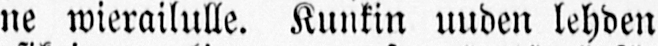ne wierailulle. Kunkin uuden lehden
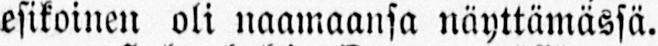esikoinen oli naamaansa näyttämässä.
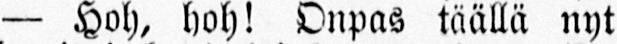— Höh, höh! Onpas täällä nyt
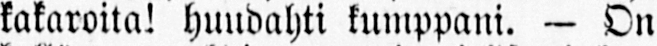kakaroita! huudahti kumppani. — On
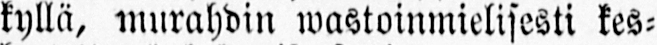kyllä, murahdin wastoinmielisesti kes-
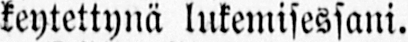keytettynä lukemisessani.
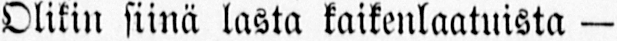Olikin siinä lasta kaikenlaatuista —
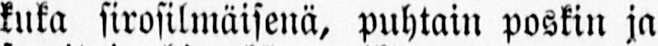kuka sirosilmäisenä, puhtain poskin ja
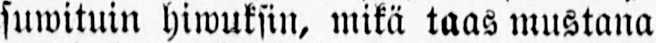suwituin hiwuksin, mikä taas mustana
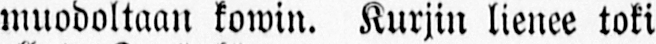muodoltaan kowin. Kurjin lienee toki
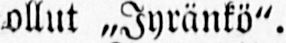ollut ˶Jyränkö".
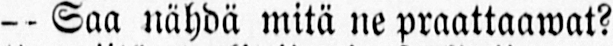- Saa nähdä mitä ne praattaawat?
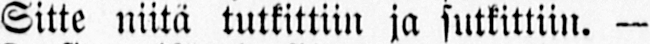Sitte niitä tutkittiin ja sutkittiin. —
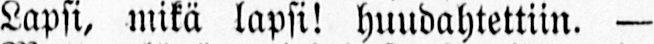Lapsi, mikä lapsi! huudahtettiin. —
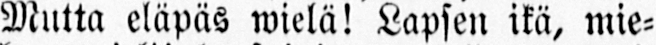Mutta eläpäs wielä! Lapsen ikä, mie-
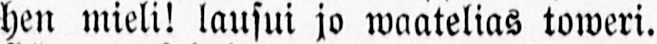hen mieli! lausui jo waatelias toweri.
